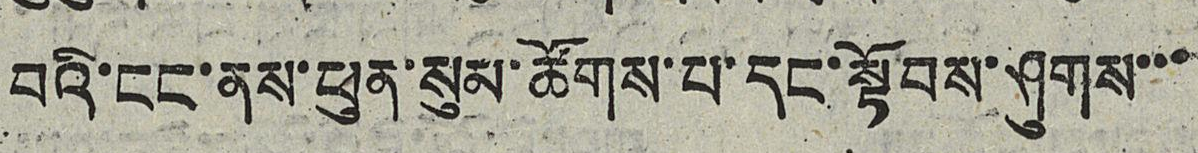བའི་ངང་ནས་ཕུན་སུམ་ཚོགས་པ་དང་སྟོབས་ཤུགས་་་
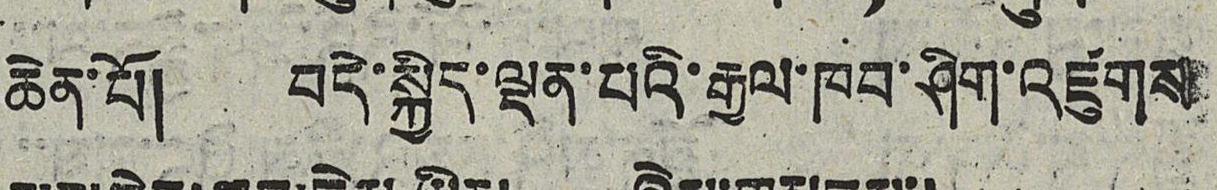ཆེན་པོ། བདེ་སྐྱིད་ལྡན་པའི་རྒྱལ་ཁབ་ཤིག་འཛུགས་
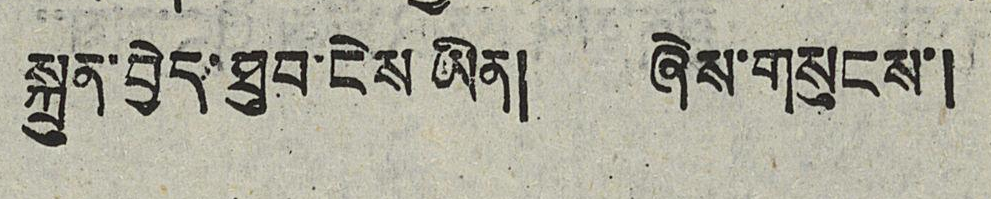སྐྲུན་བྱེད་ཐུབ་ངེས ཡིན། ཞེས་གསུངས་།
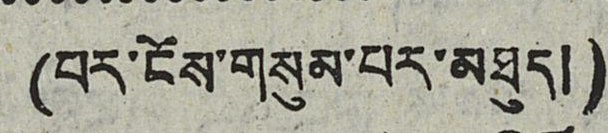(པར་ངོས་གསུམ་པར་མཐུད།)
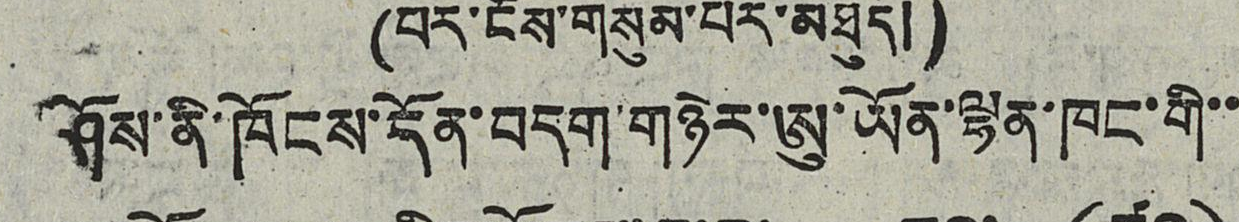ཤོས་ནི་ཁོངས་དོན་བདག་གཉེར་ཨུ་ཡོན་ལྷན་ཁང་གི་་་
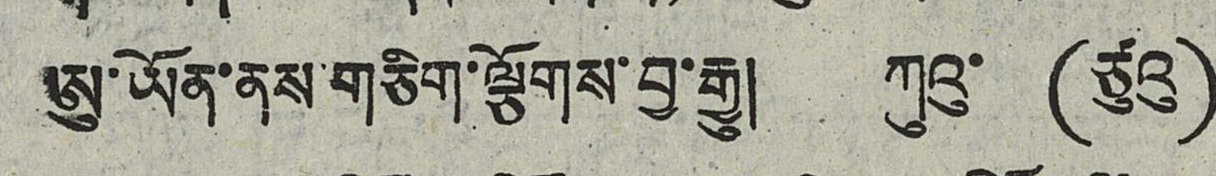ཨུ་ཡོན་ནས་གཅིག་ལྕོགས་བྱ་རྒྱུ། ཀུའུ་ (ཙུའུ)
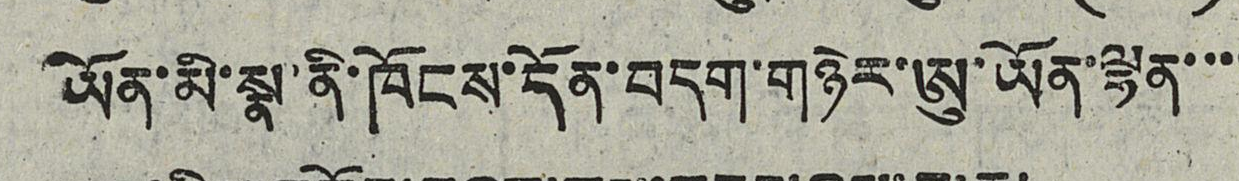ཡོན་མི་སྣ་ནི་ཁོངས་དོན་བདག་གཉེར་ཨུ་ཡོན་ལྷན་་་་
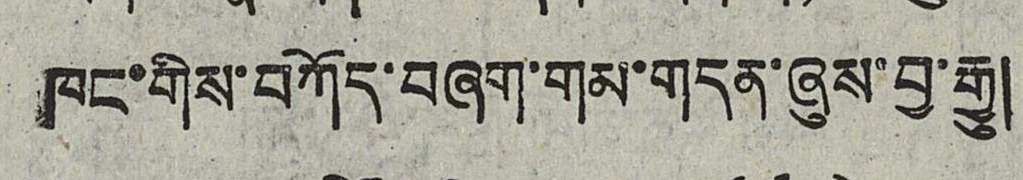ཁང་གིས་བཀོད་བཞག་གམ་གདན་ཞུས་བྱ་རྒྱུ།
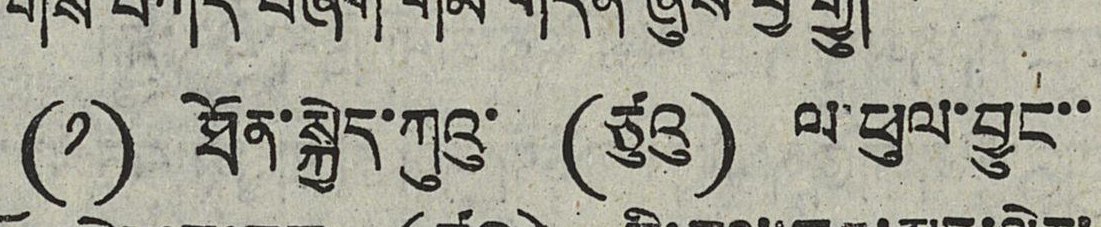(༡) ཐོན་སྐྱེད་ཀུའུ་ (ཙུའུ) ལ་ཕུལ་བྱུང་་
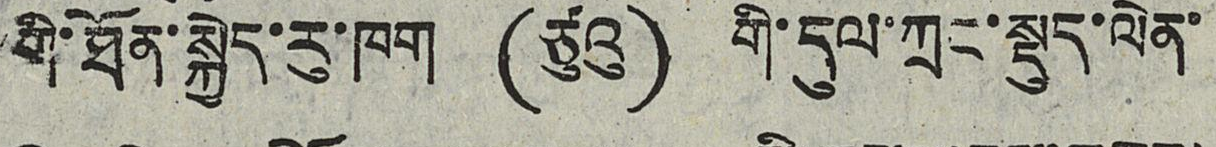གི་ཐོན་སྐྱེད་རུ་ཁག (ཙུའུ) གི་དུལ་ཀྲང་སྡུད་ལེན་
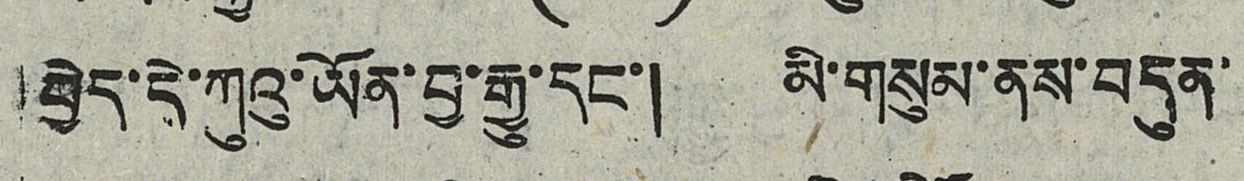བྱེད་དེ་ཀུའུ་ཡོན་བྱ་རྒྱུ་དང་། མི་གསུམ་ནས་བདུན་
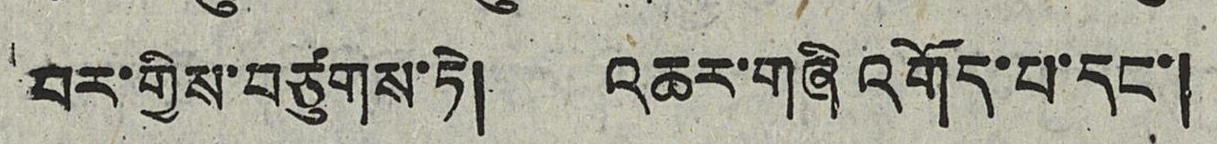བར་གྱིས་བཙུགས་ཏེ། འཆར་གཞི འགོད་པ་དང་།
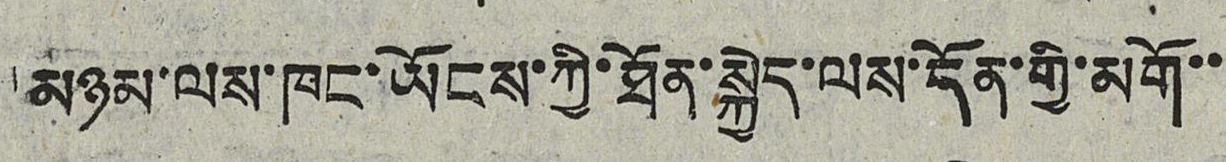མཉམ་ལས་ཁང་ཡོངས་ཀྱི་ཐོན་སྐྱེད་ལས་དོན་གྱི་མགོ་
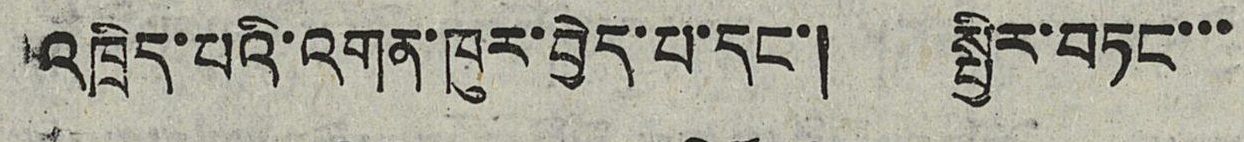འཁྲིད་པའི་འགན་ཁུར་བྱེད་པ་དང་། སྤྱིར་བཏང་་་
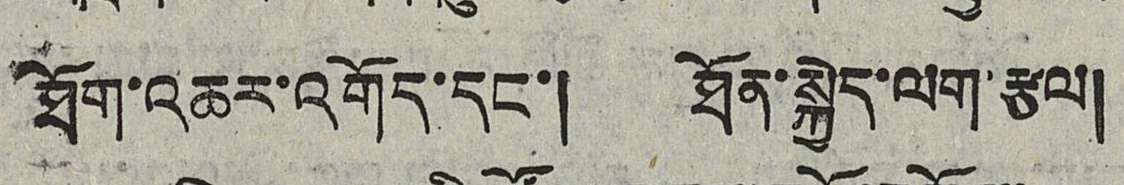ཐོག་འཆར་འགོད་དང་། ཐོན་སྐྱེད་ལག་རྩལ།
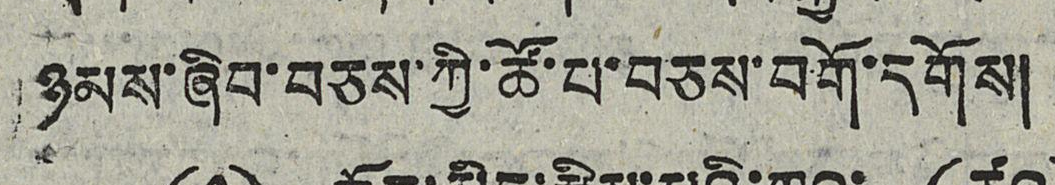ཉམས་ཞིབ་བཅས་ཀྱི་ཚོ་པ་བཅས་བགོ་དགོས།
